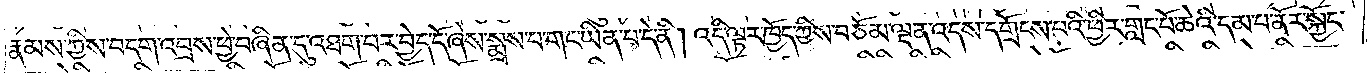རྣམས་ཀྱིས་བདག་འབྲས་ཕྱེ་བཞིན་དུ་འཐག་པར་བྱེད་དོ་ཞེས་སྨྲས་པ་གང་ཡིན་པ་དེ་ནི། འདི་ལྟར་ཁྱོད་ཀྱིས་བཅོམ་ལྡན་འདས་དགྲོངས་པའི་ཕྱིར་གླང་པོ་འཆེའི་དམ་པ་ནོར་སྐྱོང་
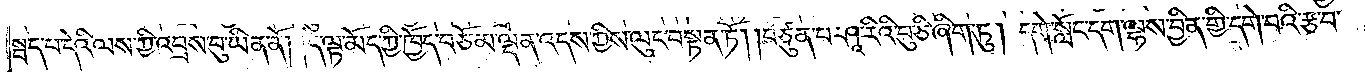སྦད་པ་དེའི་ལས་ཀྱི་འབྲས་བུ་ཡིན་ནོ། །དེ་ལྟ་མོད་ཀྱི་ཁྱོད་བཅོམ་ལྡན་འདས་ཀྱིས་ལུང་བསྟན་ཏོ། །བཙུན་པ་ཤཱ་རིའི་བུ་ཅི་ཞིག་ཏུ། དགེ་སློང་དག་ལྷས་བྱིན་གྱི་དགེ་བའི་རྩ་བ་
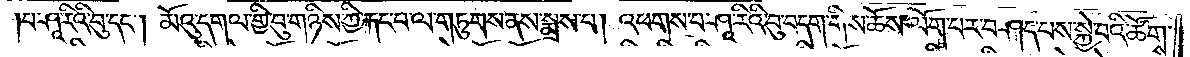།པ་ཤཱ་རིའི་བུ་དང༌། མོའུ་དགལ་གྱི་བུ་གཉིས་ཀྱི་རྐང་པ་ལ་གཏུགས་ནས་སྨྲས་པ། འཕགས་པ་ཤཱ་རིའི་བུ་བདག་གིས་ཆོས་ལོག་པར་བཤད་པས་སྐྱེ་བའི་ཚོགས་
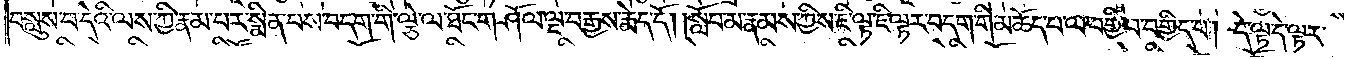བསླུས་པ་དེའི་ལས་ཀྱི་རྣམ་པར་སྨིན་པས་བདག་གི་ལྕེ་ལ་ཐོང་གཤོལ་ལྔ་བརྒྱས་རྨེད་དོ། །སློབ་མ་རྣམས་ཀྱིས་ཇི་ལྟ་ཇི་ལྟར་བདག་གི་མཆོད་པ་ལ་བགྱི་བ་བགྱིད་པ། དེ་ལྟ་དེ་ལྟར་
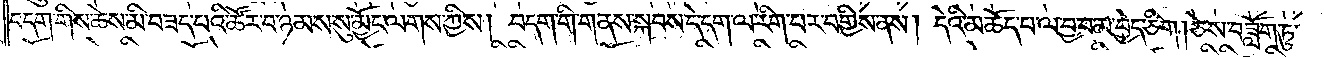བདག་གིས་ཆེས་མི་བཟད་པའི་ཚོར་བ་ཉམས་སུ་མྱོང་ལགས་ཀྱིས། བདག་གི་གནས་སྐབས་དེ་དག་ལ་རིག་པར་བགྱིས་ནས། དེའི་མཆོད་པ་ལ་བྱ་བ་མ་བྱེད་ཅིག །ཅེས་བཟློག་ཏུ་
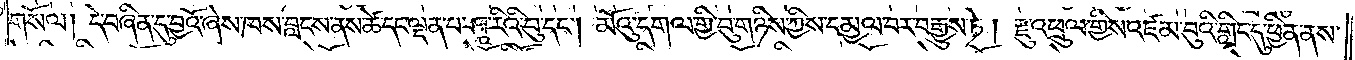གསོལ། དེ་བཞིན་དུ་བྱའོ་ཞེས་ཁས་བླངས་ནས་ཚེ་དང་ལྡན་པ་ཤཱ་རིའི་བུ་དང༌། མོའུ་དགལ་གྱི་བུ་གཉིས་ཀྱིས་དམྱལ་བར་བརྒྱུས་ཏེ། རྫུ་འཕྲུལ་གྱིས་འཛམ་བུའི་གླིང་དུ་ཕྱིན་ནས་
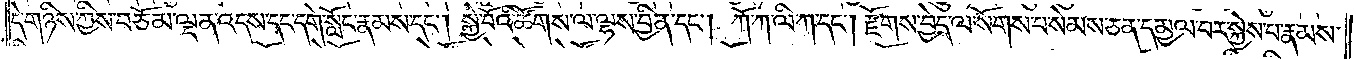དེ་གཉིས་ཀྱིས་བཅོམ་ལྡན་འདས་དང་དགེ་སློང་རྣམས་དང༌། སྐྱེ་བོའི་ཚོགས་ལ་ལྷས་བྱིན་དང༌། ཀོ་ཀ་ལི་ཀ་དང༌། རྫོགས་བྱེད་ལ་སོགས་པ་སེམས་ཅན་དམྱལ་བར་སྐྱེས་པ་རྣམས་
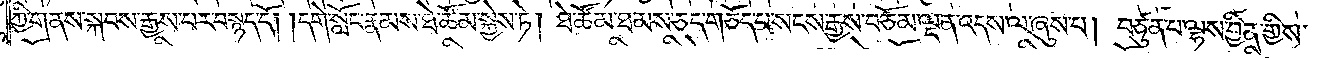ཀྱི་གནས་སྐབས་རྒྱས་པར་བསྙད་དོ། །དགེ་སློང་རྣམས་ཐེ་ཚོམ་སྐྱེས་ཏེ། ཐེ་ཚོམ་ཐམས་ཅད་གཅོད་པ་སངས་རྒྱས་བཅོམ་ལྡན་འདས་ལ་ཞུས་པ། བཙུན་པ་ལྷས་བྱིན་གྱིས་
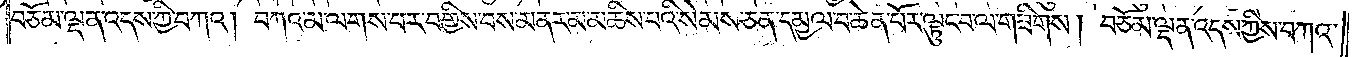བཅོམ་ལྡན་འདས་ཀྱི་བཀའ། བཀའ་མ་ལགས་པར་བགྱིས་བས་མནར་མ་མཆིས་པའི་སེམས་ཅན་དམྱལ་བ་ཆེན་པོར་ལྷུང་བ་ལ་གཟིགས། བཅོམ་ལྡན་འདས་ཀྱིས་བཀའ་
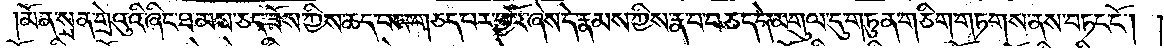མོན་སྲན་གྲེའུའི་ཞིང་ཐམས་ཅད་ཟོས་ཀྱིས་ཆད་པས་གཅད་པར་བྱའོ་ཞེས་དེ་རྣམས་ཀྱིས་རྣ་བ་བཅད་དེ་མགུལ་དུ་གཏུན་གཅིག་གཏགས་ནས་བཏང་ངོ༌། །
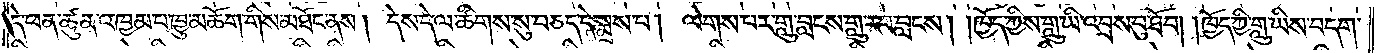དེ་ཕན་ཚུན་འཁྱམ་པ་ཁྱུ་མཆོག་གིས་མཐོང་ནས། དེས་དེ་ལ་ཚིགས་སུ་བཅད་དེ་སྨྲས་པ། ལེགས་པར་གླུ་བླངས་གླུ་རབ་བླངས། །ཁྱོད་ཀྱིས་གླུ་ཡི་འབྲས་བུ་ཐོབ། །ཁྱོད་ཀྱི་གླུ་ཡིས་བདག་
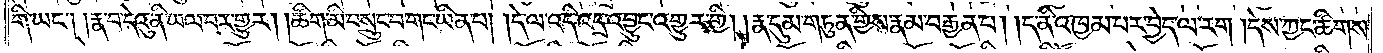གི་ཡང༌། །རྣ་བ་དེའུ་ནི་ཡལ་བར་གྱུར། །ཚིག་མི་བསྲུང་བ་གང་ཡིན་པ། །དེ་ལ་འདི་འདྲ་འབྱུང་འགྱུར་གྱི། །རྣ་དུམ་གཏུན་གྱིས་རྣམ་བརྒྱན་པ། །ད་ནི་འཁྱམ་པར་བྱེད་ལ་རག །དེས་ཀྱང་ཚིགས་
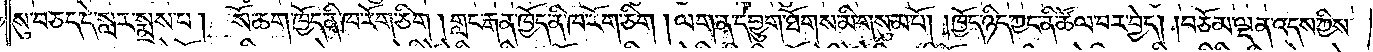སུ་བཅད་དེ་སླར་སྨྲས་པ། སོ་ཆག་ཁྱོད་ནི་ཁ་རོག་ཅིག །གླང་རྒན་ཁྱོད་ནི་ཁ་རོག་ཅིག །ལག་ན་དབྱུག་ཐོགས་མི་གསུམ་པོ། །ཁྱོད་ཉིད་ཀྱང་ནི་ཚོལ་བར་བྱེད། །བཅོམ་ལྡན་འདས་ཀྱིས་
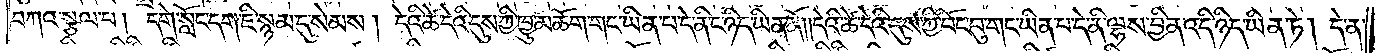བཀའ་སྩལ་པ། དགེ་སློང་དག་ཇི་སྙམ་དུ་སེམས། དེའི་ཚེ་དེའི་དུས་ཀྱི་ཁྱུ་མཆོག་གང་ཡིན་པ་དེ་ནི་ང་ཉིད་ཡིན་ནོ། །དེའི་ཚེ་དེའི་དུས་ཀྱི་བོང་བུ་གང་ཡིན་པ་དེ་ནི་ལྷས་བྱིན་འདི་ཉིད་ཡིན་ཏེ། དེ་ན་
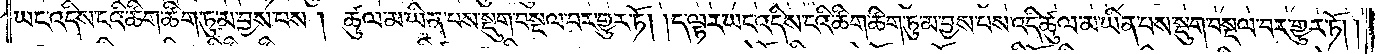ཡང་འདིས་ངའི་ཚིག་ཚིག་ཏུ་མ་བྱས་པས། ཚུལ་མ་ཡིན་པས་སྡུག་བསྔལ་བར་གྱུར་ཏོ། །ད་ལྟར་ཡང་འདིས་ངའི་ཚིག་ཚིག་ཏུ་མ་བྱས་པས་འདི་ཚུལ་མ་ཡིན་པས་སྡུག་བསྔལ་བར་གྱུར་ཏོ། །
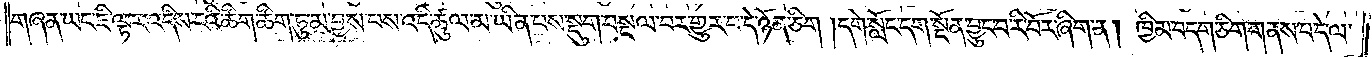གཞན་ཡང་ཇི་ལྟར་འདིས་ངའི་ཚིག་ཚིག་ཏུ་མ་བྱས་པས་འདི་ཚུལ་མ་ཡིན་པས་སྡུག་བསྔལ་བར་གྱུར་པ་དེ་ཉོན་ཅིག །དགེ་སློང་དག་སྔོན་བྱུང་བ་རི་བོར་ཞིག་ན། ཁྱིམ་བདག་ཅིག་གནས་པ་དེ་ལ་
